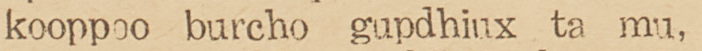kooppoo bur cho gupdhiux ta mu,
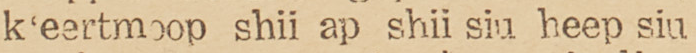k'eertmoop shii ap shii siu heep siu
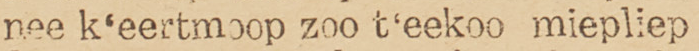nee k'eertmoop zoo t'eekoo miepliep
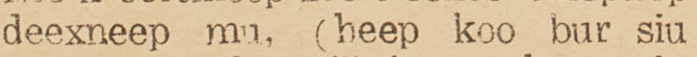deexneep mu, (heep koo bur siu
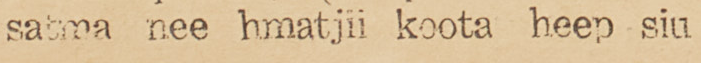satma nee hmatjii koota heep siu
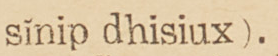sinip dhisiux).
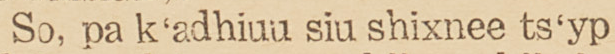So, pa k'adhiuu siu shixnee ts'yp
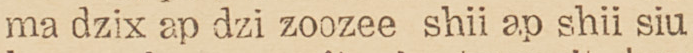ma dzix ap dzi zoozee shii ap shii siu
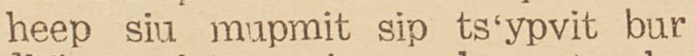heep siu mupmit sip ts'ypvit bur
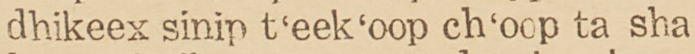dhikeex sinip t'eek'oop ch'oop ta sha
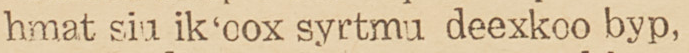hmat siu ik'oox syrtmu deexkoo byp,
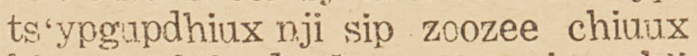ts'ypgupdhiux nji sip zoozee chiuux
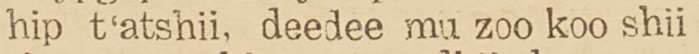hip t'atshii, deedee mu zoo koo shii
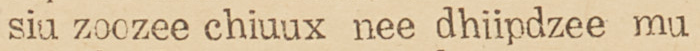siu zoozee chiuux nee dhiipdzee mu
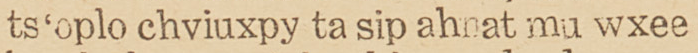ts'oplo chviuxpy ta sip ahnat mu wxee
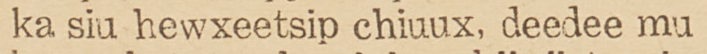ka siu hewxeetsip chiuux, deedee mu
